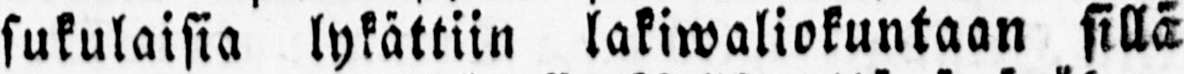sukulaisia lykättiin lakiwaliokuntaan sillä
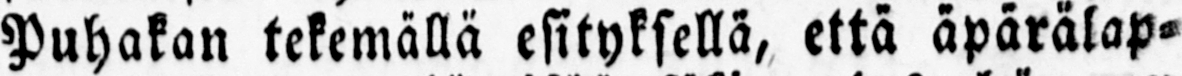Puhakan tekemällä esityksellä, että äpärälap-
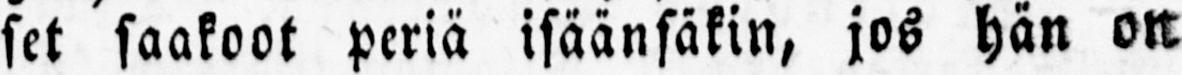set saakoot periä isäänsäkin, jos hän on
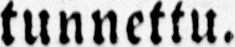tunnettu.
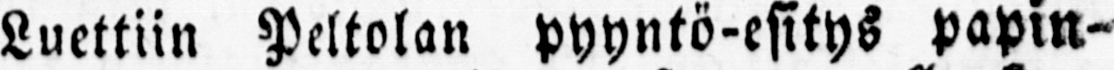Luettiin Peltolan pyyntö-esitys papin-
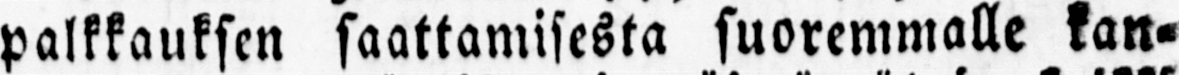palkkauksen saattamisesta suoremmalle kan-
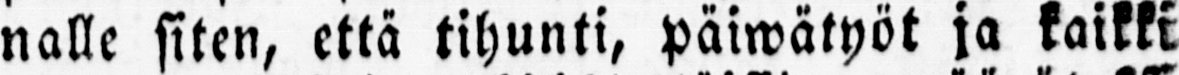nalle siten, että tihunti, päiwätyöt ja kaikki
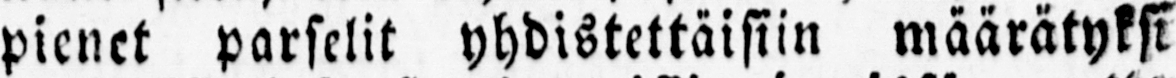pienet parselit yhdistettäisiin määrätyksi
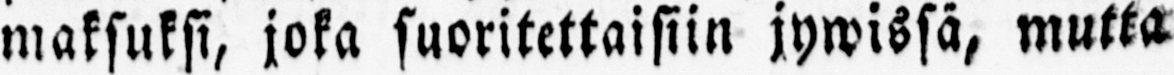maksuksi, joka suoritettaisiin jywissä, mutta
